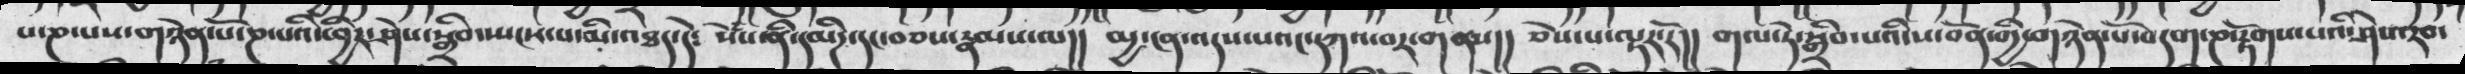པ་ཎ་པས་གཉེན་པོ་ཎ་པའི་ཕྱིར་ཤེས་སྒྲིབ་སྤངས་པ་མི་འཐད་དེ༴ སེཾས་ནི་དམིཌ་དང་བཅས་རྣམས་ལ།། མྱ་ངན་འདས་པའང་དཀའ་བར་གནས།། ཅེས་པ་ལྟར་རོ།།  གལ་ཏེ་སྒྲིབ་པའི་ས་བོན་གྱི་གཉེན་པོ་བདག་ཎ་རྟོགས་པའི་ཤེས་རབ་
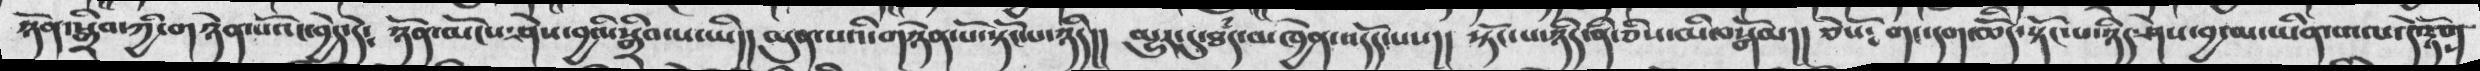ཉོན་སྒྲིབ་ཀྱི་གཉེན་པའོ་བྱེད་དེ༴   ཉོན་མོངས་ཤེས་བྱའི་སྒྲིབ་པ་ཡི།།  མུན་པའི་གཉེན་པོ་སྟོང་པ་ཉིད།།  མྱུར་དུ་ཐཾད་མཁྱེན་འདོད་པས།།  སྟོང་པ་ཉིད་ནི་ཅིས་མི་སྒོམ།།  ཅེསོ༴   གང་དག་ཆོིད་སྟོང་པ་ཉིད་ཤེས་བྱ་མ་ཡིན་པ་ལ་དེ་རྟོགས་
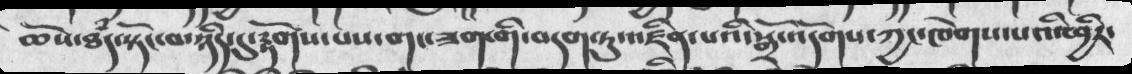ཆོས་ཐཾད་སྟོང་པ་ཉིད་དུ་རྟོགས་པས་གང་ཟག་གི་བདག་ཏུ་འཛིན་པའི་སྒྲོ་འདོགས་ཀྱང་ཁེགས་པའི་ཕྱིར་
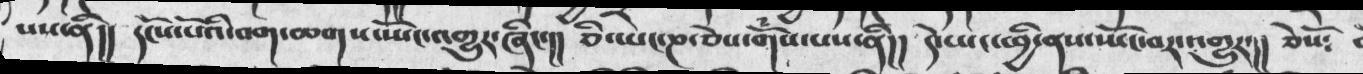པས་ནི།།  དངོས་པོའི་བག་ཆགས་སྤོང་འགྱུར་ཞིང་།། ཅི་ཡང་ཎ་ཅེས་གོཾས་པས་ནི།།  དེ་ཡང་ཕྱི་ནས་སྤོང་བར་འགྱུར་།།  ཅེསོ༴
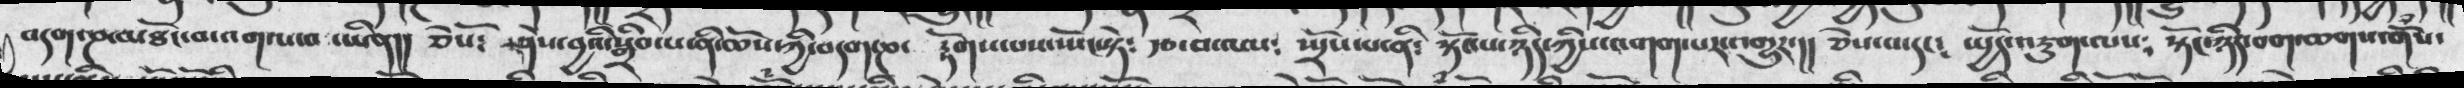བདག་ཎ་མཐོང་བ་འགལ་བ་ཡིན།།   ཅེསོ༴   ཤེས་བྱའི་སྒྲིབ་པ་ནི་ཆོས་ཀྱི་བདག་ཎ་   རྟོགས་པས་སྤོང་སྟེ༴  རྩ་བ་ལས༴  ཡྲོས་པ་ནི༴  སྟོང་པ་ཉིད་ཀྱིས་འགག་པར་འགྱུར་།།    ཅེས་པ་དང༴   ཡྱོད་འཇུག་ལས༴  སྟོང་ཉིད་བག་ཆགས་གོཾས་
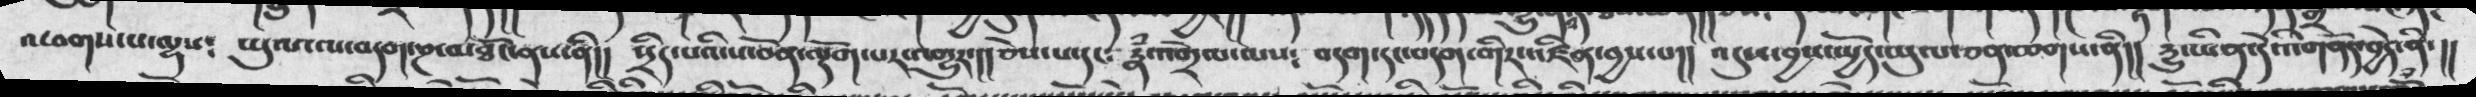འཕགས་པ་ལྷས༴  ཡུལ་ལ་བདག་ཎ་མཐོང་ནས་ནི།།  སྲིད་པའི་ས་བོན་ལྡོག་པར་འགྱུར་།།  ཅེས་པ་དང༴རྣཾ་འགྲེལ་ལས༴ བདག་དང་བདག་གིར་འཛིན་བྱས་པ།།  འདུས་བྱས་ཡྱོད་ཡུལ་ཅན་ཆགས་ནི།།  རྱུ་ཡིན་དེའི་གནོད་བྱེད་ནི་།།
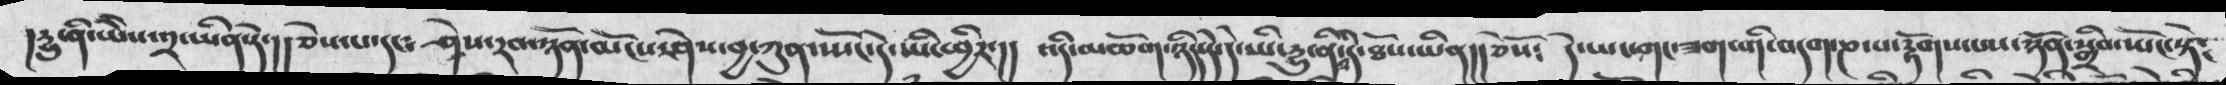།རྱུ་ནི་ཡེེས་༢་ཡིན་དེ་།། ཅེས་པ་དངད༴  ཤེས་རབ་ཉོན་མོངས་ཤེས་བྱ་ཀུན་སྤོང་དེ་ཡི་ཕྱིར་།།  འདི་མཆོག་ཉིད་དེ་དེ་ཡི་རྱུ་ནི་འདི་ཐོས་ཡིན།། ཅེསོ༴ དེ་ཡང་གང་ཟག་གི་བདག་ཎ་པ་རྟོགས་པས་ཉོན་སྒྲིབ་སྤོང་སྟེ༴
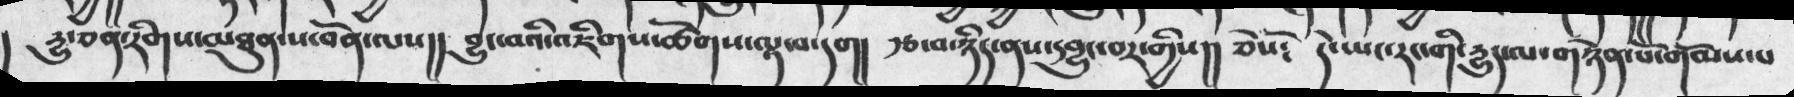དྱུ་ཅན་རིགས་མཐུན་ས་བོན་ལས།།  བྱུང་བའི་འཇིགས་ཚོགས་ལྟ་བ་དག།  རྩ་བ་ཉིད་ནས་དབྱུང་བར་གྱིས།། ཅེསོ༴  དེ་ཡང་རང་གི་དྱུད་ལ་གཉེན་པོ་གོམས་པ
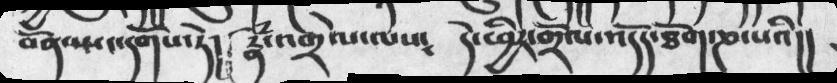བོན་སྤང་དགོས་ཏེ།  རྣཾ་འགྲེལ་ལས༴   དེ་ཕྱིར་གྲོལ་འདོད་ཐོག་ཎ་པའི།།
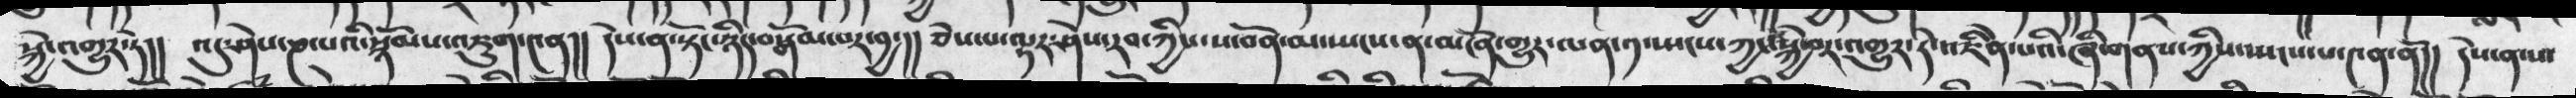སྐྱེ་འགྱུར་ཏེ།།  འདུ་ཤེས་ཎ་པའི་སྙོམས་འཇུག་༤ན།།  དེས་ན་སྟོང་ཉིད་བསྒོམ་པར་བྱ་།།  ཅེས་པ་ལྟར་ཤེས་རབ་ཀྱིས་ས་བོན་མ་སྤངས་ཀྱང་སྐྱེ་བར་འགྱུར་རོ་འཇིེན་པའི་ཞི་གནས་ཀྱི་སྤངས་པ་༤ན་ནོ།།   དེས་ན་པ་
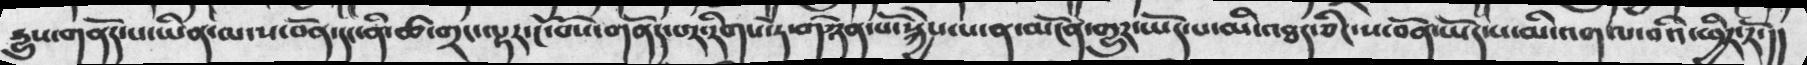དྱུས་གནོད་པ་ཡིན་ལ་ས་བོན་དང་ནི་ཚ་གྲང་ལྟར་ངོ་བོས་གནོད་པར་རིགས་ཏེ་གཉེན་པོ་སྐྱེས་པ་ན་མངོན་གྱུར་ཡོད་པ་མི་འཐད་ཅིང་ས་བོན་ཡོད་པ་མི་འགལ་བའི་ཕྱིར་རོ་།།
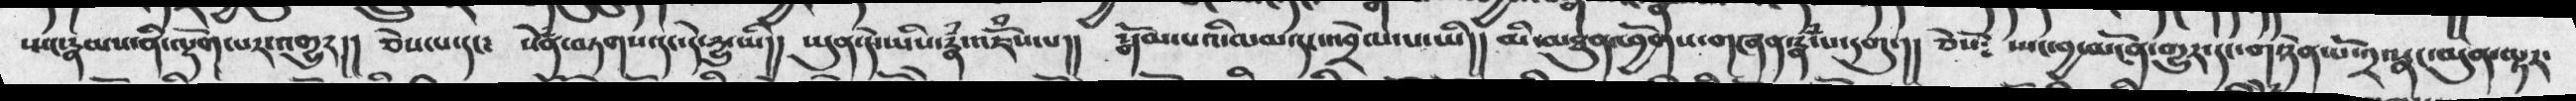སྤང་རྣམས་ནི་ལྟོག་པར་འགྱུར།།  ཅེས་པ་དང༴  སེཾན་བཏགས་དང་དེ་དྱུ་ཡི།།  ཡུན་དེ་ཡིས་རྣཾ་འཇོྃས་པ།།  སྒོམ་པའི་ལམ་དང་འབྲེལ་པ་ཡི།།  མི་མཐུན་ཕྱོགས་གཞན་རྣཾ་པ་དགུ།།  ཅེསོ༴  སྤང་བྱ་མངོན་གྱུར་དང་གཉེན་པོ་༢་སྣང་མུན་ལྟར་
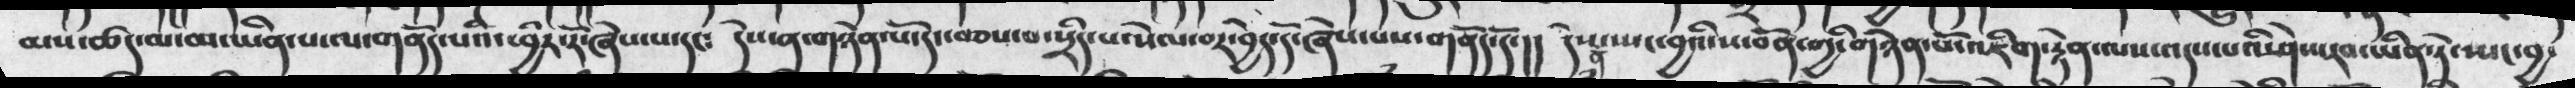མས་ཚད་མ་མ་ཡིན་པ་ལ་གནོད་པའི་ཕྱིར་རོ་ཞེས་པ་དང༴  དེས་ན་གཉེན་པོ་དང་བཅས་པ་སྲིད་པ་སེལ་བར་བྱེད་དོ་ཞེས་པས་གནོད་དོ་།།  དེས་ན་སྤང་བྱའི་ས་བོན་གྱི་གཉེན་པོ་འཇིག་རྟེན་ལས་འདས་པའི་ཤེས་རབ་ཡིན་ཏེ་སྤང་བྱ་
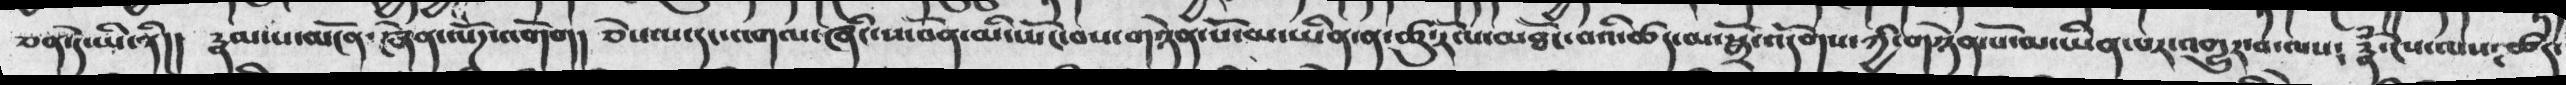ཅན་དེ་ཡི་ནི།། རྣམ་པ་མངོན་ཞེན་ལོཌ་འགོག། ཅེས་པ་དང་འགལ་ཞིང་ས་བོན་མི་སྤོང་བས་གཉེན་པོ་མ་ཡིན་ན་ཚུ་རོལ་མཐོང་བའི་ཚད་སྒྲོ་འདོགས་ཀྱི་གཉེན་པོ་མ་ཡིན་པར་འགྱུར་བ་ལས༴  རྣཾ་ངེས་ལས༴ཚར་
